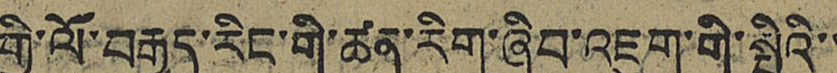གྱི་ལོ་བརྒྱད་རིང་གི་ཚན་རིག་ཞིབ་འཇུག་གི་སྤྱིའི་་
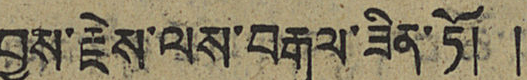བྱས་རྗེས་ལས་བརྒལ་ཟིན་ཏོ། །
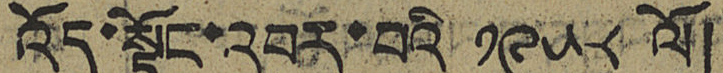འོད་སྟོང་འབར་བའི ༡༩༥༨ ལོ།
